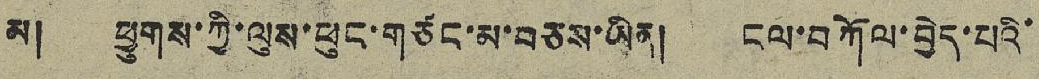མ། ཕྱུགས་ཀྱི་ལུས་ཕུང་གཙང་མ་བཅས་ཡིན། ངལ་བཀོལ་བྱེད་པའི་
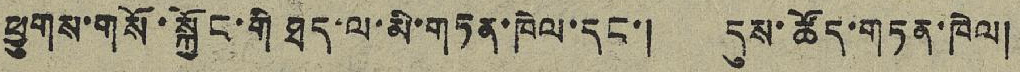ཕྱུགས་གསོ་སྐྱོང་གི ཐད་ལ་མི་གཏན་ཁེལ་དང་། དུས་ཚོད་གཏན་ཁེལ།
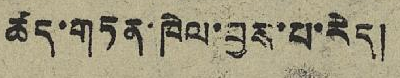ཚད་གཏན་ཁེལ་བྱས་པ་རེད།
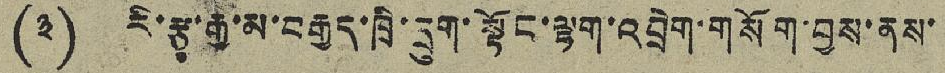(༣) རི་རྩྭ་རྒྱ་མ་བརྒྱད་ཁྲི་དྲུག་སྟོང་ལྷག་འབྲེག་གསོག་བྱས་ནས་
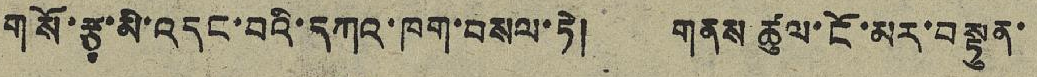གསོ་རྩྭ་མི་འདང་བའི་དཀའ་ཁག་བསལ་ཏེ། གནས་ཚུལ་ངོ་མར་བསྟུན་
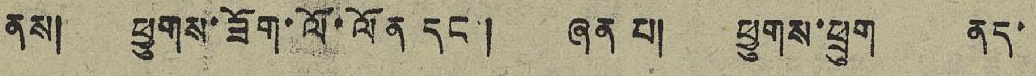ནས། ཕྱུགས་ཟོག་ལོ་ལོན དང་། ཞན པ། ཕྱུགས་ཕྲུག ནད་
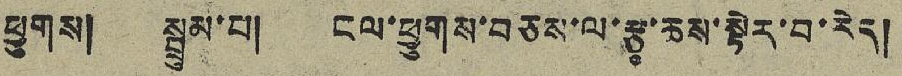ཕྱུགས། སྦྲུམ་པ། ངལ་ཕྱུགས་བཅས་ལ་རྩྭ་ཆས་སྟེར་བ་རེད།
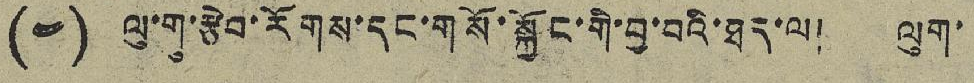(༤) ལུ་གུ་རྩེབ་རོགས་དང་གསོ་སྐྱོང་གི་བྱ་བའི་ཐད་ལ། ལུག་
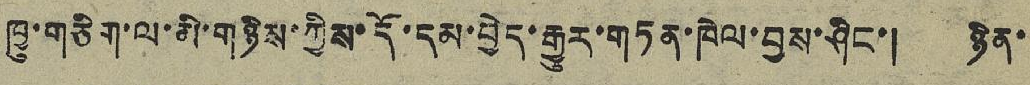ཁྱུ་གཅིག་ལ་མི་གཉིས་ཀྱིས་དོ་དམ་བྱེད་རྒྱུར་གཏན་ཁེལ་བྱས་ཤིང་། ཉིན་
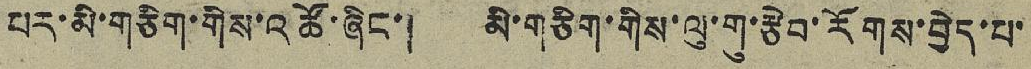པར་མི་གཅིག་གིས་འཚོ་ཞིང་། མི་གཅིག་གིས་ལུ་གུ་རྩེབ་རོགས་བྱེད་པ་
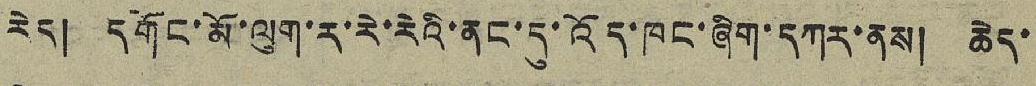རེད། དགོང་མོ་ལུག་ར་རེ་རེའི་ནང་དུ་འོད་ཁང་ཞིག་དཀར་ནས། ཆེད་
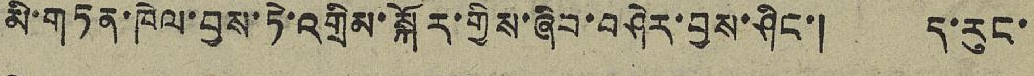མི་གཏན་ཁེལ་བྱས་ཏེ་འགྲིམ་སྐོར་གྱིས་ཞིབ་བཤེར་བྱས་ཤིང་། ད་རུང་
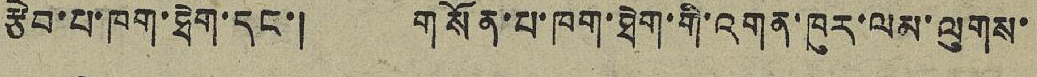རྩེབ་པ་ཁག་ཐེག་དང་། གསོན་པ་ཁག་ཐེག་གི་འགན་ཁུར་ལམ་ལུགས་
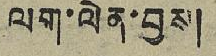ལག་ལེན་བྱས།
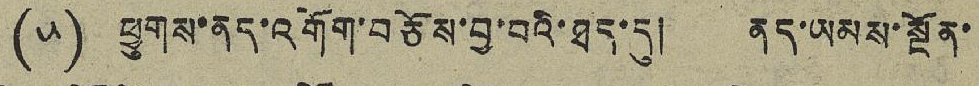(༥) ཕྱུགས་ནད་འགོག་བཅོས་བྱ་བའི་ཐད་དུ། ནད་ཡམས་སྔོན་
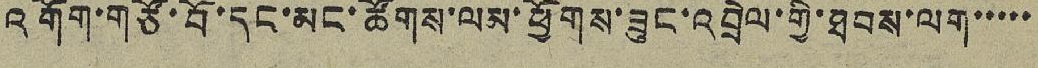འགོག་གཙོ་བོ་དང་མང་ཚོགས་ལམ་ཕྱོགས་ཟུང་འབྲེལ་གྱི་ཐབས་ལག་་་་་
